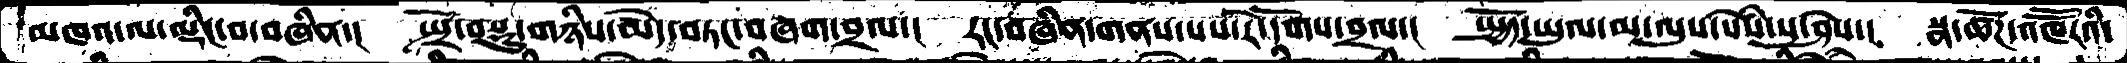མཁའ་ལ་ལྡིང་བ་བཞིན་།  སྤྲོ་བསྡུ་གཉིས་མེད་བཏང་བཞག་བྲལ་།  རང་བཞིན་གནས་པས་རེ་དོགས་བྲལ་།  སྤྱོད་ཡུལ་མ་ལུས་སེསཾ་སུ་ཤེས་།  སྣ་ཚོཌ་འཁཽརའི་
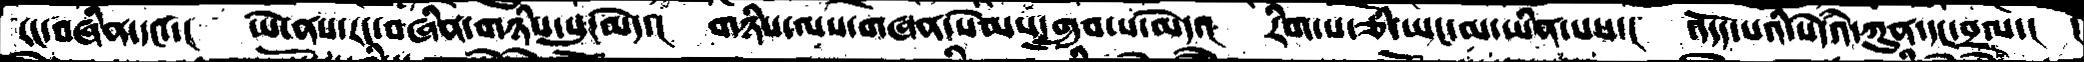རང་བཞིན་དང་།  ཡེ་ནས་རང་བཞིན་གཉིས་སུ་མེད་།  གཉིས་ལས་གཞན་སེམས་གྲུབ་པ་མེད་།  རིག་པ་ཅི་ཡང་མ་ཡིན་པས་།  འདོད་པའི་སེདཾའ་ཀུན་དང་བྲལ་།
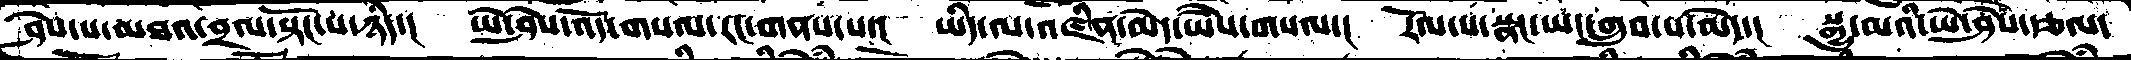ཤེས་པ་མཐའ་བྲལ་སྟོང་པ་ཉིད་།  ཡེ་ཤེས་འོད་གསལ་རང་གནས་པ་།  ཡིད་ལ་འཛིན་མེད་ཡཻས་གསལ་།  རོལ་པ་སྣང་ཡང་གྲུབ་པ་མེད་།  སྒྱུ་མའི་ཡེ་ཤེས་རྩལ་
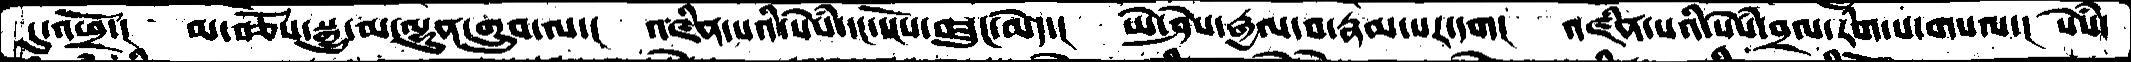དུ་འཕྲོ་།  མ་བཅོས་སྒྱུ་མ་ལྷུན་གྲུབ་ལ་།  འཛིན་པའི་སེེསཾ་དང་དངོས་བཟུང་མེད་།  ཡེ་ཤེས་རྒྱལ་བ་རྣམ་པར་དག་།  འཛིན་པའི་སེསཾ་བྲལ་རིག་པ་གསལ་།  སེསཾ་
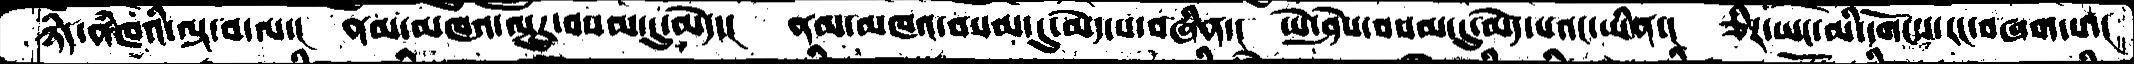ཉིད་ནཾཁའི་ལྟ་བ་ལ་།  ནམ་མཁའ་ལྟུར་བསམ་དུ་མེད་།  ནམ་མཁའ་བསམ་དུ་མེད་པ་བཞིན་།  ཡེ་ཤེས་བསམ་དུ་མེད་པའང་ཡིན་།  ཅིར་ཡང་མི་དགོངས་རང་བཞག་པ་།
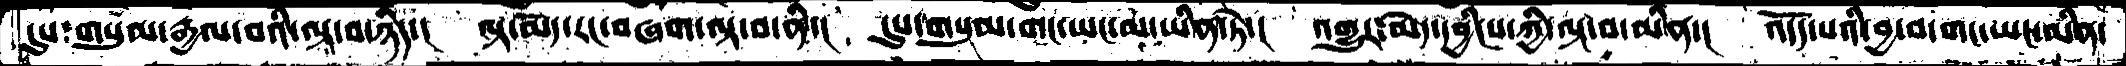དུས་གསུམ་རྒྱལ་བའི་ལྟ་བ་ཉིད་། ལྟ་མེད་རང་བཞག་ལྟ་བ་ནི་། དུས་གསུམ་གང་ཡང་མ་ཡིན་ཏེ་། འགྱུར་མེད་དབྱིངས་ཀྱི་ལྟ་བ་མིན་། འདོད་པའི་བྱ་བ་གང་ཡང་མིན་
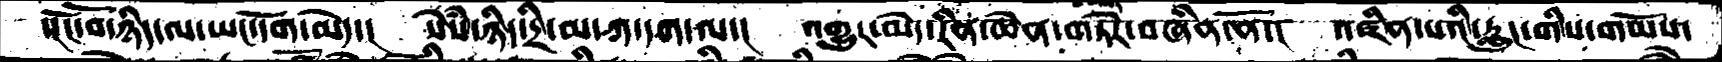་།ངོ་བོ་ཉིད་ལ་ཡང་དོག་མེད་།  སེསཾ་ཉིད་དྲི་མ་ཀ་དག་ལ་།  འགྱུར་མེད་རིན་ཆེན་གཏེར་བཞིན་ནོ་།  འཛིན་པའི་རླུང་གིས་གཡོས་
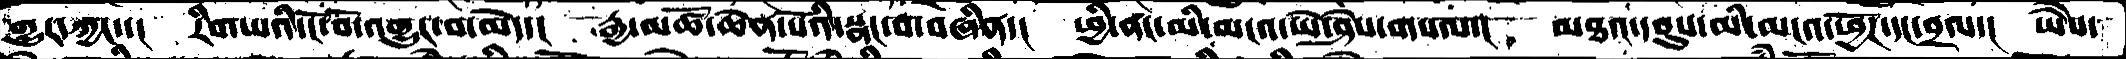གྱུར་ཀྱང་་།  རིག་པའི་ངོ་བོ་འགྱུར་བ་མེད་།  རྒྱ་མཚོ་ཆེན་པོའི་སྣང་བ་བཞིན་།  ཕྱི་ནང་མི་མངའ་ཡེ་ཤེས་གསལ་། མཐའ་དབུས་མི་མངའ་ཕྱོཌ་དང་བྲལ་།  ཡཻས་
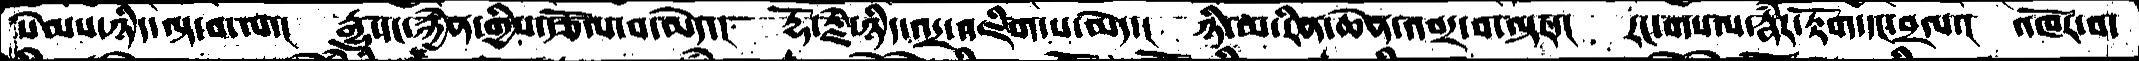སེམས་ཉིད་ལྟ་བ་ལ་།  རྒྱུ་དང་རྐྱེན་གྱིས་རྩོལ་བ་མེད་།  རྡོ་རྗེ་ཉིད་འདྲ་འཇིག་པ་མེད་།  ཉི་མ་རིན་ཆེན་འབར་བ་ལྟར་།  རང་གསལ་རྣཾར་རྟོག་དང་བྲལ་།  འཁོར་བ་
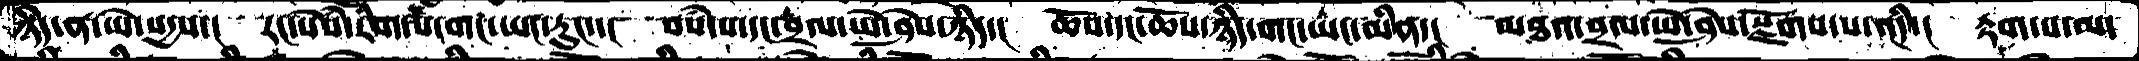ཉིད་ན་ཡེ་སདྱས་།  རང་སེཾས་རིག་པ་གང་ཡང་རུང་་།  བསཾ་པ་དང་བྲལ་ཡེ་ཤེས་ཉིད་།  ཆོས་དང་ཆོས་ཉིད་གང་ཡང་མིན་།  མཐའ་བྲལ་ཡེ་ཤེས་སྫོགས་པ་འདི་།  རྟག་པ་མ་
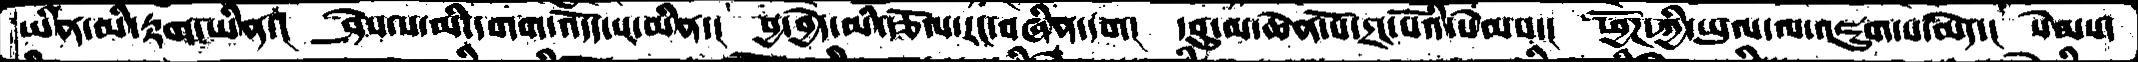ཡིན་མི་རྟག་ཡིན་།   ཤེས་པ་མི་དགག་འདདོ་པར་མིན་།  བྱ་བྱེད་མི་རྩོལ་རང་བཞིན་དག།  དབུ་མ་ཆེན་པོ་དྲང་པོའི་སེམས་།  ཕྱོཌ་ཀྱི་ཡུལ་ལ་འཇུག་པ་མེད་།  སེམས་
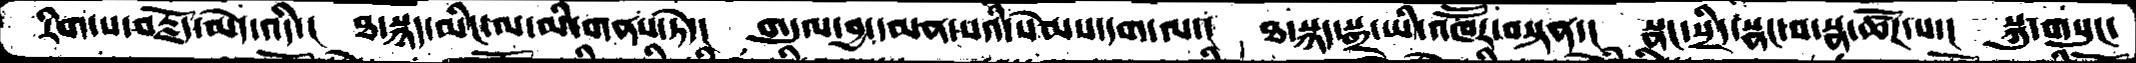རིག་པ་བརྗོད་མེད་འདི་།  ཐ་སྙད་མིང་ལ་མི་གནས་ཏེ་།  གདུལ་བྱ་དམན་པའི་སེམས་དག་ལ་།  ཐ་སྙད་སྒྲ་ཡི་འཁཽར་བསྟན་།  སྣང་སྲིད་སྣང་བ་སྣ་ཚོཌ་པ་།  སྐུ་གསུང་
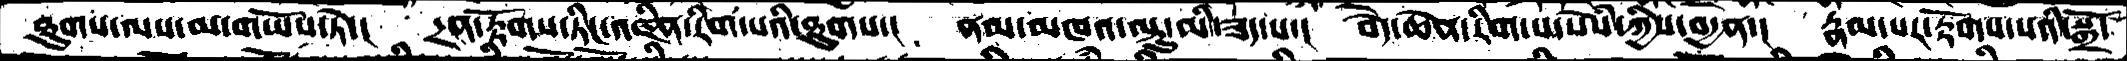ཐུགས་ལས་མ་གཡོས་ཏེ་།  དྲན་རྟོགས་ཏིང་འཛིན་རིག་པའི་ཐུགས་།  ནམ་མཁའ་ལྟུ་མི་ཟད་པ་།  བདེ་ཆེན་རིག་པ་སེཾས་ཀྱིས་བདྱན་།   རྣམ་པར་རྟོགས་པའི་སྒྲོ་
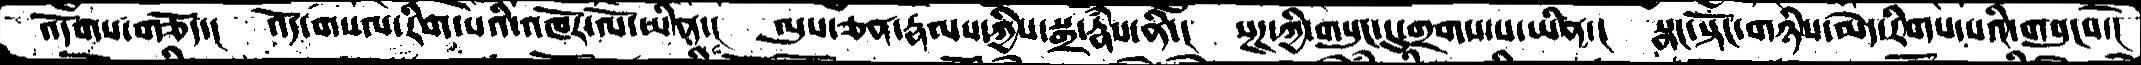འདོགས་གཅོད་།  འོད་གསལ་རིག་པའི་འཁོར་ལོ་ཡིན་།  ལུས་ཅན་རྣམས་ཀྱིས་སྒྲ་རྣཾས་ནི་།  སྔཌ་ཀྱི་གསུང་དུ་གྲགས་པ་ཡིན་།  སྣང་སྟོང་གཉིས་མེད་རིགས་པའི་གསུངས་།
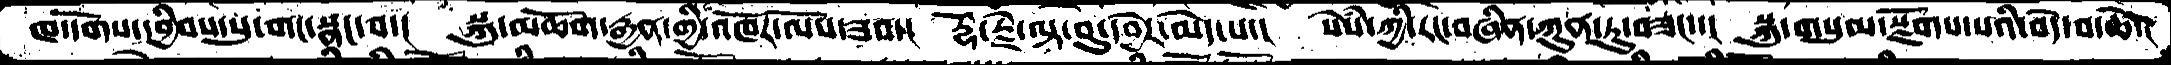ཁ་དོགས་དབྱིབས་སུ་གང་སྣང་བ་།  སྐུ་མཆོག་རྒྱན་གྱི་འཁོར་ལོས་ཟབ་།  རྡོ་རྗེ་ལྟ་བུ་དབྱེར་མེད་པ་།  སེསཾ་ཀྱི་་རང་བཞིན་ཀུན་ཏུ་་བཟང་་།  སྐུ་གསུམ་སྫོགས་པའི་བདེ་བ་ཆེ་།
